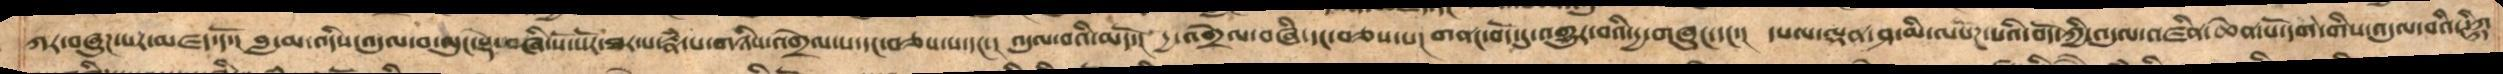ཀར་བཞུཌ་པར་མཛད་དོ་།   བླ་མ་འདིས་འདུལ་བ་ལུང་སྡེ་བཞི་སོ་སོར་ཐར་པ་རྣཾ་པ་གཉིས་འགྲེལ་པ་དང་བཅས་པ་དང་།  འདུལ་བའི་མདོ་།  དྱ་འགྲེལ་བཞི་དང་བཅས་པ། གནང་བོད་དུ་འགྱུར་བའི་དྱ་གཞུང་དང་།  དཔལ་ལྡན་ཤ་མི་ལསོཌ་པའི་བོད་ཀྱི་འདུལ་འཛིན་ཆེན་པོ་དག་གིས་འདུལ་བའི་ཊིཀྐ
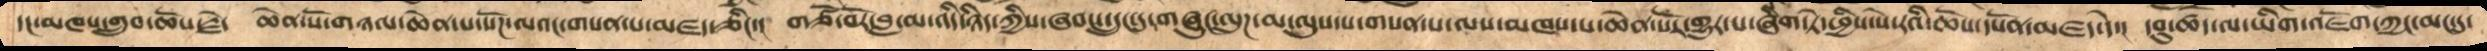དང་མཁས་གྲུབ་ཆོས་རྗེ།  ཆེན་པོ་གཉལ་ཆེན་པ་སོཌ་ལའང་གསན་པ་མཛད་ཅིང་།  གཙོ་བོར་བླ་མ་འདི་ཉིད་ཀྱིས་ཞབས་དྲུང་དུ་གཞུང་ལུཌ་མ་ལུས་པ་གསན་པ་ལས་མཁས་པ་ཆེན་པོར་གྱུར་པ་ཞིག་ཏེ་ཕྱིས་སེ་རའི་ཆོས་དཔོན་མཛད།  དབུ་ཚད་ལ་ཡིག་འཇོག་ཀྱང་མང་དུ་
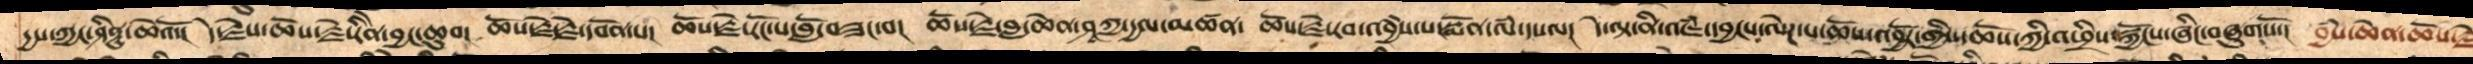དྱས་ཀྱང་ཤིནྟུ་ཆེའོ་།  དེ་རྗེས་ཆོས་རྗེ་རིནེ་བྱང་ཆུབ།  ཆོས་རྗེ་རྗེ་དབོན་པ།  ཆོས་རྗེ་རོང་པ་བློ་བཟང་བ།  ཆོས་རྗེ་བླ་ཆེན་ཤཱཀྱ་དྱལ་མཚན་  ཆོས་རྗེ་རབ་འབྱཾས་པ་སྨོན་ལཾ་དཔལ།  དེ་ལྟ་ནི་འཇཾ་དབྱངས་ལེཌ་པ་ཆོས་འབྱོར་གྱིས་ཆོས་ཀྱི་འཕྲིས་སྐྱོངས་ཞིང་བཞུགསོ་།  བྱཾས་ཆེན་ཆོས་རྗེ
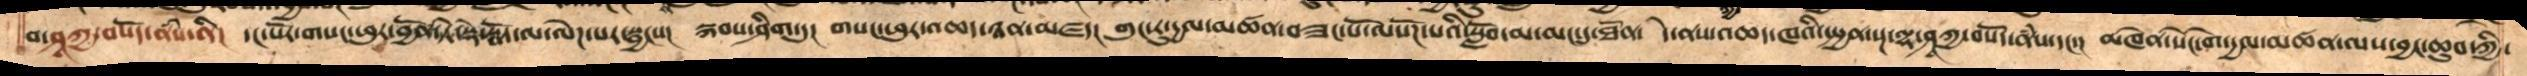བ་ཤཱཀྱ་བསོད་ནཾས་ནི།  དང་པོར་གསང་ཕུར་བྱོན་ཏེ་སྡེ་སྣོད་ལ་ལེཌ་པར་སྦྱངས།  སྐབས་ཤིག་དུ།  གསང་ཕུར་འཆད་ཉན་མཛད།  གུང་རུ་དྱལ་མཚན་བཟང་པོ་ལསོཌ་པའི་སློབ་མ་མང་དུ་ཐོན་  དེ་ནས་འཆད་ཁའི་སྤྱན་སྔ་ལྷ་ཤཱཀྱ་བསོད་ནཾས་དང་།  མཁེན་སེང་གེ་དྱལ་མཚན་ལས་བྱང་ཆུབ་ཀྱི་
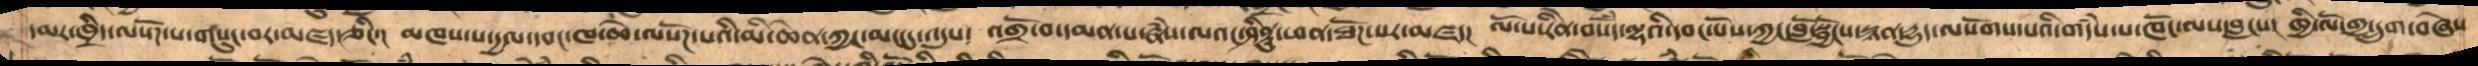དམར་ཁྲིད་ལསོཌ་པ་གསུང་བར་མཛད་ཅིང་།  མཁས་པ་དྱལ་དབང་ཁ་ཆེ་ལསོཌ་པའི་མི་ཆེན་ཀྱང་མང་དུ་འདུས།  འགྲོ་བ་དམན་པ་རྣཾས་ལའང་ཤིནྟུ་ཕན་ཐོཌ་པར་མཛད།  ལོ་པ་རིེན་བསོདཾ་ལྷའི་དབང་པོས་ཀྱང་བློ་སྦྱོངས་སྙན་དྱུད་ལསོགས་པའི་གདཾས་པ་ཁོང་ལས་བླངས།  ཁྱི་ལོ་གྱ་དྲུག་བཞེས
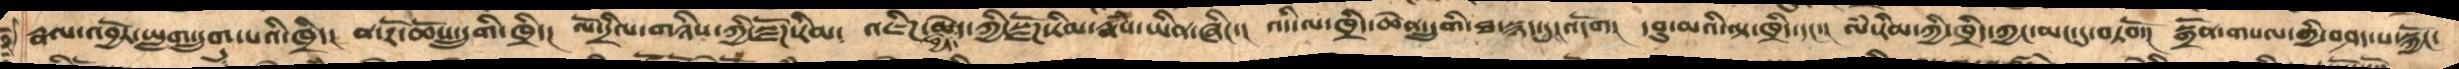རྣལ་འབྱོར་ཡླག་དྲུག་པའི་ཁྲིད། ན་རོ་ཆོས་དྲུགི་ཁྲིད། ལོ་དྲིལ་གཉིས་ཀྱི་སྫོཌ་རིམ༴ འཇིཌ་བྱེད་མེད་ཀྱི་སྫོཌ་རིམ་རྣཾས་ཡིན་ཞིང་། འདི་ལ་ཁྲིད་ཆེན་དྲུགི་ཐ་སྙད་དུ་འདོག། དབུ་མའི་ལྟ་ཁྲིད་དང་། ལཾ་རིམ་ཀྱི་ཁྲིད་ཀྱང་མང་དུ་བཏབོ་། སྒྲོན་གསལ་གྱི་བཤད་པ་སྐྱོང་
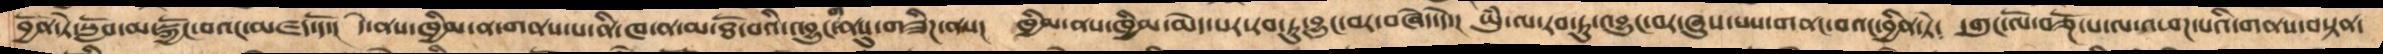བྱོན་ཏེ་སློབ་མ་སྐྱོང་བའང་མཛད་དོ་།  དེ་ནས་ཁྱིམ་ན་གནས་པ་ནི་ཁ་ན་མ་ཐོ་བའི་འབྱུང་ནསུ་གཟིཌ་ནས།  ཁྱིམ་ནས་ཁྱིམ་མེད་པར་རབ་ཏུ་བྱུང་བར་བཞེད་དེ་།   ཡུཾ་ལ་རབ་ཏུ་འབྱུང་བར་ཞུས་པས་གནང་བའང་བྱིན་ཏེ།  དགུང་ལོ་བཅྔོ་པ་ལ་འཕཌ་པའི་གནས་བསྟན་
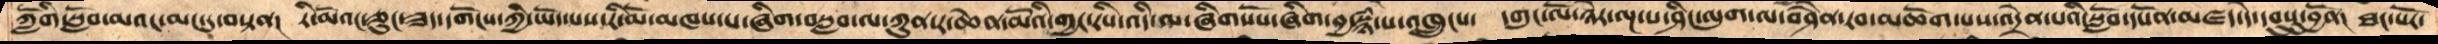ཀློགི་སློབ་མའང་མང་དུ་བསྟན། རི་མོའང་ཅུང་ཟད་དགོངས་ཀྱི་ཡོད་པས་རི་མོ་མཁས་པ་ཞིག་བསླབ་ལ་ཀུན་ར་ཆེན་མོའི་གྱང་རིས་འདི་ལ་ཞིགསོས་ཞིག་བྱ་སྙཾ་པ་འཁྲུངས་  དགུང་ལོ་ཉེར་ལྔ་པ་ཤིང་ལུག་ལ་བཤཻན་རབ་མཆོག་པས་འདྲེན་པའི་སློབ་དཔོན་མཛད་དེ་དབུསུ་བྱོན།  ཐང་པོར་
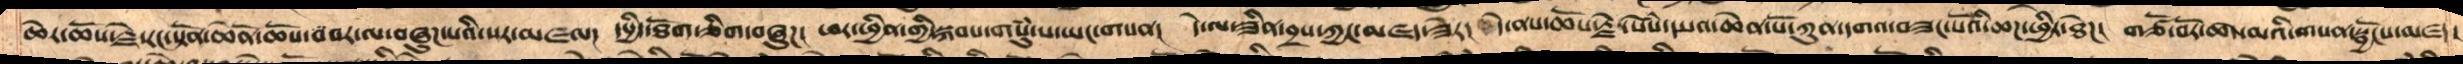ཆེར་ཆོས་རྗེ་རང་སྟོན་ཆེནོ་ཆོས་བབར་ལ་བཞུཌ་པའི་སར་མཛལ།  དཔྱིད་ཐོག་ཅིག་བཞུཌ།  ཕར་ཕྱིན་གྱི་སྐབས་གསུཾ་པ་ཡང་གསན།  དེ་ལ་ཟིན་བྲིས་ཀྱང་མཛད་ཟེར།  དེ་ནས་ཆོས་རྗེ་སེཾས་དཔའ་ཆེན་པོ་ཀུན་དགའ་བཟང་པོའི་ཆཌ་ཕྱིར་ཐེཌ།  གཙོ་བོར་ཚད་མའི་གསན་སྦྱོངས་མཛད་
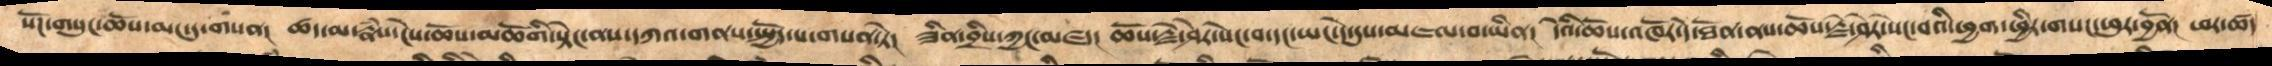སོཌ་གསུང་ཆོས་མང་དུ་གསན།  ཚད་མ་རྣཾས་ངེས་ཆོས་མཆོགི་སྟེང་ནས་དཀའ་གནས་སྤྱོད་པ་གསན་ཏེ།  ཟིན་བྲིས་ཀྱང་མཛད།  ཆོས་རྗེ་ཤེར་སེང་བ་དང་ཡང་དེ་དུས་མཇལ་བ་ཡིན།  དེའི་ཆོས་འཁོར་དེ་ཐོན་ནས་ཆོས་རྗེ་ཤེར་སེང་བའི་ཕྱག་ཕྱིར་གསང་ཕུར་བྱོན།  ཕར་ཚད
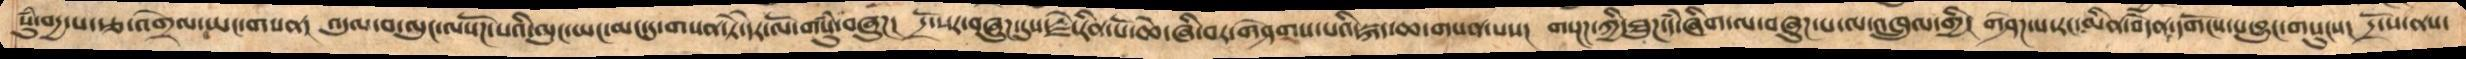སུཾ་བདྱ་པ་རྩ་འགྲེལ་ཡང་གསན།  འདུལ་བ་ལུང་ལསོཌ་པའི་ལུང་ཡང་མང་དུ་གསན་ཏེ་དེར་ལོ་གསུཾ་བཞུཌ།  དྲོ་སར་བཞུཌ་དུས་རྗེ་རིན་པོ་ཆེ་ཞི་བར་གཤེགས་པའི་སྐད་ཆ་གསན་པས།  གསྔཌ་ཀྱི་ཐུཌ་དཾ་ཞིག་ལ་བཞུཌ་པ་ལ་འཁྲུལ་གྱི།  གཤེཌ་པ་རང་མིན་བདཻན་དགོངས་པ་བྱུང་གསུངས།  དྲོ་ས་ནས་
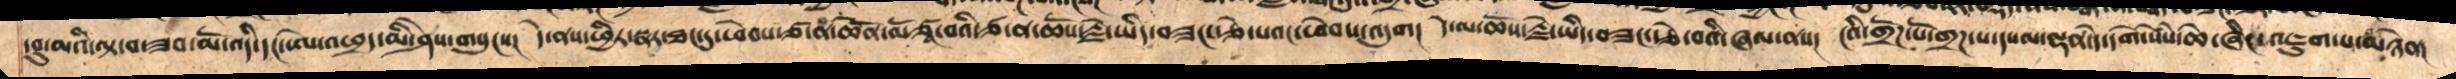དབུ་མའི་ལྟ་བ་ཟབ་མོ་འདི་དང་ཨེ་འཕྲད་མི་ཤེས་གསུངས།  དེ་ནས་ཕྱིར་སྣར་ཐང་དུ་ཕེབས་ཙ་ན་ཆེནོ་ལོཙཱ་བའི་ཙ་ན་ཆོས་རྗེ་ཡིད་བཟང་རྩེ་པའང་ཕེབས་འདུག།  དེ་ལ་ཆོས་རྗེ་ཡིད་བཟང་རྩེ་བའི་ཞལ་ནས།  ངའི་གྲོཌ་པོ་གྲཌ་པ་དཔལ་ལྡན་དེ་དགེ་སེསཾ་ཆེ་ཞིང་འཇུག་པ་མཉེན།
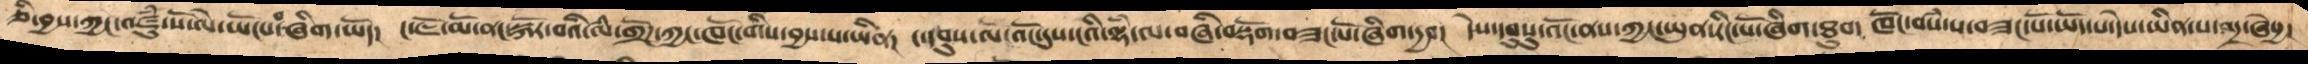ཅི་བྱས་ཀྱང་འཛུཾ་སོ་ལེ་ཡོངས་བ་ཞིག་ཡོད།  ང་ཇོ་མོ་ནང་སྐོར་བའི་ལཾ་གྲོཌ་ཀྱང་ཁོང་གིས་བྱས་པ་ཡིན།  ང་དབུས་ལ་འོང་དུས་ངའི་ལྷཾ་ལ་བཞི་བསྡོག་བཟང་པོ་ཞིག་དྱབ།  དེས་དབུསུ་འོང་ནས་ཀྱང་ཡུན་རིན་པོ་ཞིག་ཐུབ་  ཁོང་བསཾ་པ་བཟང་པོ་ཡོད་པ་དེས་ཡིན་པ་འདྲ་ཞེསྱ།
